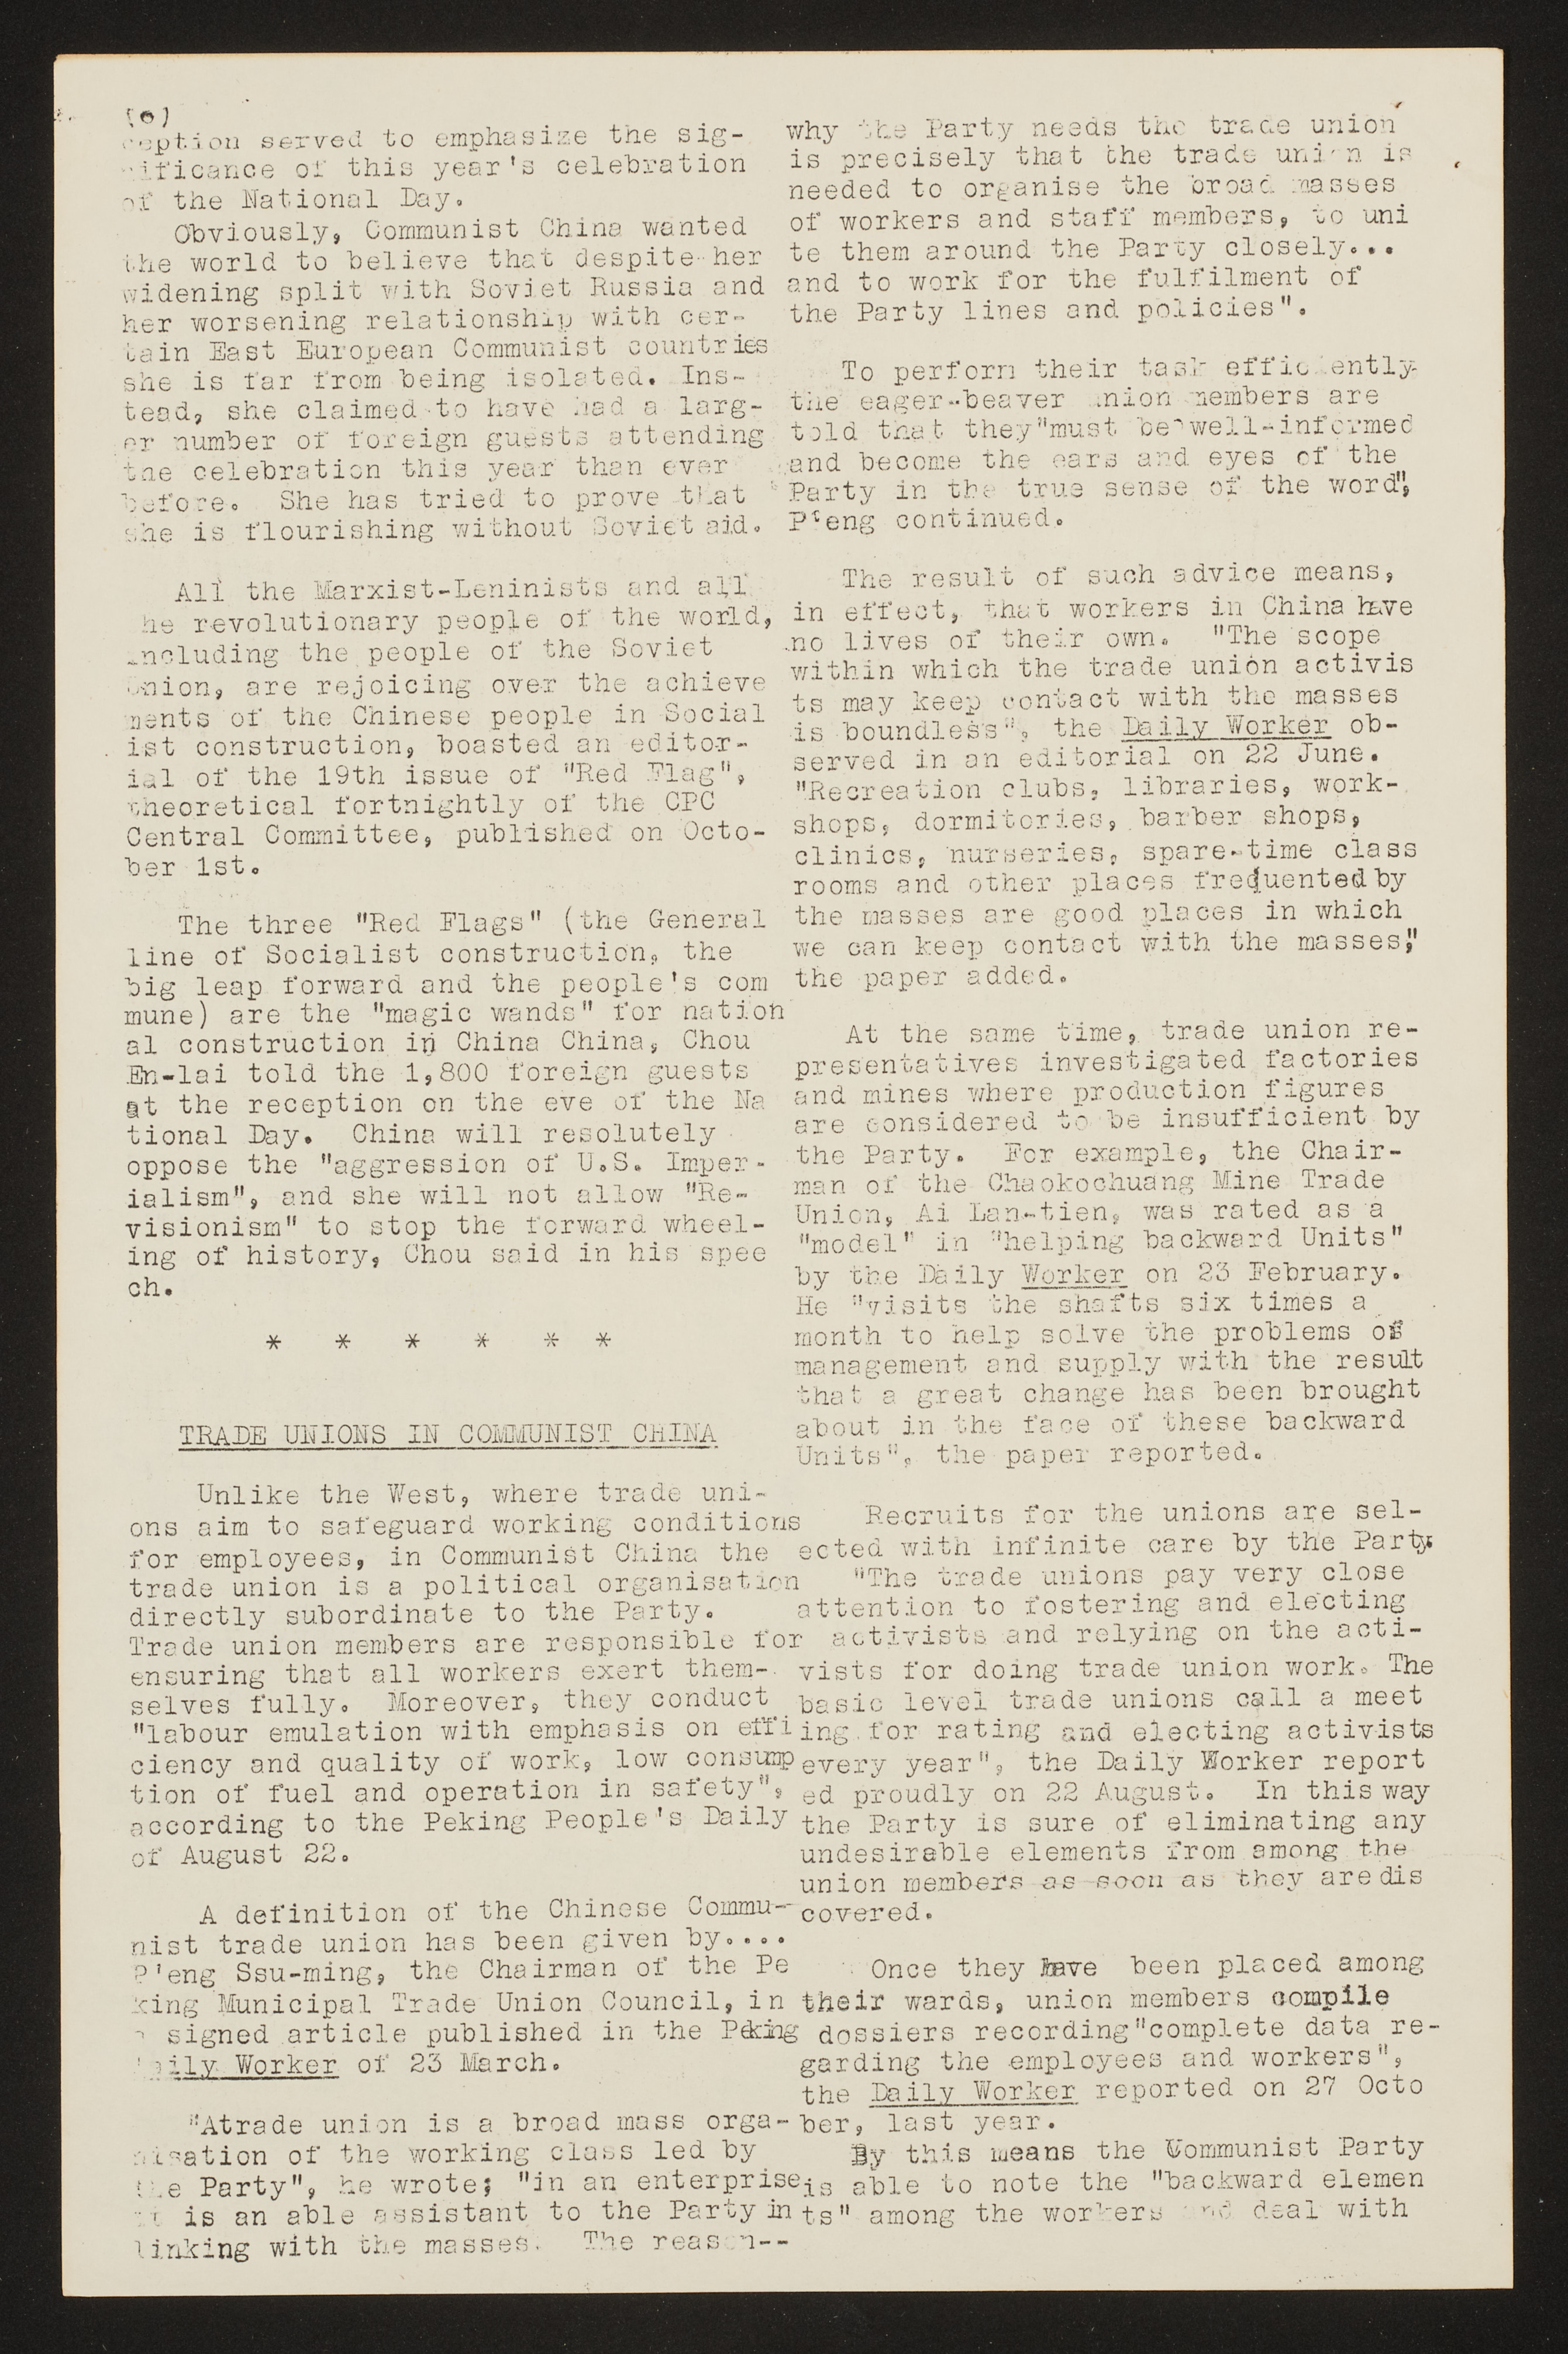(7)
them severely. It is for this reason
hat the trade union is so feared and
respected by the working classes in
China. Their very existence depends
upon the trade union members.
NEWS LETTER From Taip i Taiwan"
HONGKONG CHINESE INDICT REDS IN 10 -
POINT STATEMENT :-
Free Chinese in Hongkong greeted
the Chinese Communists "national day"
with a ten-point indictment against
the Peiping regime.
The indictment was contained in
declaration signed by 2,568 civic and
cultural leaders who escaped to Hong-
kong following the Communist seizure
of the mainland.
Among them was Chou Chin-wen, for
mer secretary-general of the leftist
"Chinese Democratic League, and mem-
ber of the "National Committee of the
People's Congress", who defected in
1956.
The Peiping regime was indicted
for:-- (1) practising one-party dicta
torship in the guise of "coalition
government"; (2) yielding outer Mongol
ia, an integral part of Chinese terri
tory, to Soviet control; (3) persecut
ing the people in purges and liquida-
tions; (4) enforcing the system of the
d causing a prolonged man
made famine; (5) overworking the peo
in slave labour camps to the point
of damaging the health of the nation;
6) destroying Chinese culture by in
troducing the foreign ideology of ....
Marxist-Leninism; (7) repression of
Tibetans and other enological minor
ities; (8) breaking up the Chinese
amily system; (9) luring overseas
Chinese youths to the mainland and ex
torting money from overseas Chinese
(10) pursuing militant course in
international affairs at the risk of
global nuclear war.
taling 600,000 are already billeted
in the Taipe area, awaiting the big
day.
Late-model warplanes will fly over
head. Vehicles will include tanks
received from the United States only
a few months ago.
Overseas Chinese dignitaries are
arriving daily. The October 10 cere
monies will mark the 52nd anniversary
of the Republic of China. This years
observance comes at a time when the
Chinese Communist regime is plagued
with greater internal and external
difficulties than ever before.
PEIPING REGIME LOSES ITS OPTIMISTIC
VIEW OF THE FUTURE
English-language China Post
says the Chinese Communists are los
ing their "rosy hopes" for the future.
The paper was commenting on Peiping's
celebration of October 1 as the anni
versary of its mainland seizure of
power.
The editorial said:-
"At the very beginning-14 or 13
years ago-the Red leader in Peiping
might have honestly entertained
hopes of a bright future for their
Communist regime. At that time,
many people in the world could still
be deceived and led to believe that
the Peiping regime had ushered in
a new era in Chinese history and
was here to stay... Thousands of
overseas Chinese boys and girls flo
cked to the mainland to receive ad-
vanced education. !
PREPARATIONS COMPLETE FOR DOUBLE TENTH
CELEBRATION
Preparations are virtually complete
for Taiwan's biggest celebration of the
Double Tenth national day.
President Chiang Kai-shek will re-
view a gigantic military parade from
stands erected in front of the presi-
dential building. He will receive
well-wishers from throughout the free
world.
Representatives of armed forces to-
"Those rosy hopes, however, did
not last long--especially on the
part of overseas Chinese. In less
than two years the true nature of
the Peiping regime became known to
many people in the outside world
The most striking indication of this
fact was the sudden decrease in the
number of the Communist 'five star'
flags displayed in Hongkong in the
annual 'celebration' of October 1.
"The decrease became more and
more striking each year with the re-
sult that two days ago there were
hardly any 'five-star' flags to be
seen in the British Crown Colony a-
side from those displayed by the...
banks and other agences controlled
by the Communists.
The Communist failure on the...
